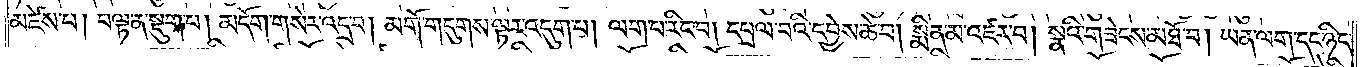མཛེས་པ། བལྟ་ན་སྡུག་པ། མདོག་གསེར་འདྲ་བ། མགོ་གདུགས་ལྟར་འདུག་པ། ལག་པ་རིང་བ། དཔྲལ་བའི་དབྱེས་ཆེ་བ། སྨིན་མ་འཛར་བ། སྣའི་གཟེངས་མཐོ་བ། ཡན་ལག་དང་ཉིང་
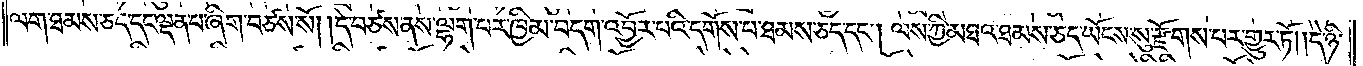ལག་ཐམས་ཅད་དང་ལྡན་པ་ཞིག་བཙས་སོ། །དེ་བཙས་ནས་ལྷག་པར་ཁྱིམ་བདག་འབྱོར་པའི་དགོས་པ་ཐམས་ཅད་དང༌། ལས་ཀྱི་མཐའ་ཐམས་ཅད་ཡོངས་སུ་རྫོགས་པར་གྱུར་ཏོ། །དེ་ཉི་
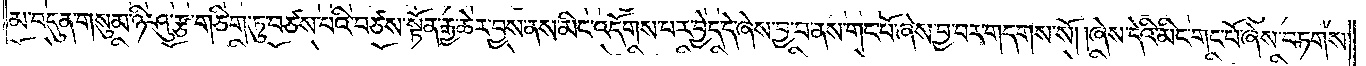མ་བདུན་གསུམ་ཉི་ཤུ་རྩ་གཅིག་ཏུ་བཙས་པའི་བཙས་སྟོན་རྒྱ་ཆེར་བྱས་ནས་མིང་འདོགས་པར་བྱེད་དེ་ཞེས་བྱ་བ་ནས་གང་པོ་ཞེས་བྱ་བར་གདགས་སོ། །ཞེས་དེའི་མིང་གང་པོ་ཞེས་བཏགས་
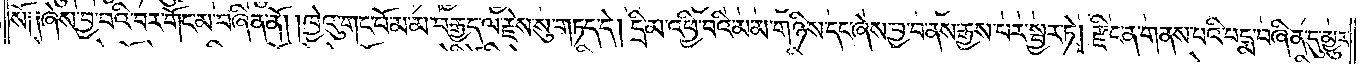སོ༑ ༑ཞེས་བྱ་བའི་བར་གོང་མ་བཞིན་ནོ། །ཁྱེའུ་གང་པོ་མ་མ་བརྒྱད་ལ་རྗེས་སུ་གཏད་དེ། དྲི་མ་འཕྱི་བའི་མ་མ་གཉིས་དང་ཞེས་བྱ་བ་ནས་རྒྱས་པར་སྦྱར་ཏེ། རྫིང་ན་གནས་པའི་པདྨ་བཞིན་དུ་མྱུར་
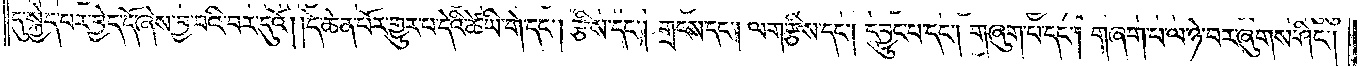དུ་སྐྱེད་པར་བྱེད་དོ་ཞེས་བྱ་བའི་བར་དུའོ། །དེ་ཆེན་པོར་གྱུར་པ་དེའི་ཚེ་ཡི་གེ་དང༌། རྩིས་དང༌། གྲངས་དང༌། ལག་རྩིས་དང༌། དབྱུང་པ་དང༌། གཞུག་པ་དང༌། གཞག་པ་ལ་ཉེ་བར་ཞུགས་ཤིང༌།
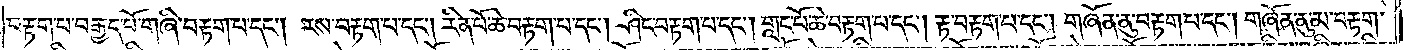བརྟག་པ་བརྒྱད་པོ་གཞི་བརྟག་པ་དང༌། རས་བརྟག་པ་དང༌། རིན་པོ་ཆེ་བརྟག་པ་དང༌། ཤིང་བརྟག་པ་དང༌། གླང་པོ་ཆེ་བརྟག་པ་དང༌། རྟ་བརྟག་པ་དང༌། གཞོན་ནུ་བརྟག་པ་དང༌། གཞོན་ནུ་མ་བརྟག་
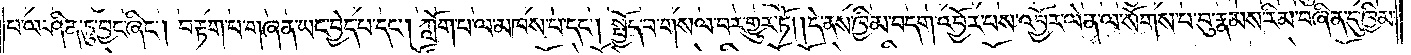པ་ལ་ཤིན་ཏུ་བྱང་ཞིང༌། བརྟག་པ་གཞན་ཡང་བྱེད་པ་དང༌། ཀློག་པ་ལ་མཁས་པ་དང༌། སྤྱོད་པ་གསལ་བར་གྱུར་ཏོ། །དེ་ནས་ཁྱིམ་བདག་འབྱོར་པས་འབྱོར་ལེན་ལ་སོགས་པ་བུ་རྣམས་རིམ་བཞིན་དུ་ཁྱིམ་
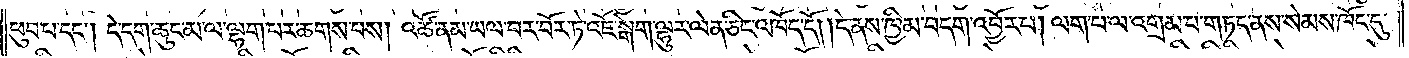ཕུབ་པ་དང༌། དེ་དག་ཆུང་མ་ལ་ལྷག་པར་ཆགས་པས། འཚོ་ནམ་ཡལ་བར་བོར་ཏེ་འཇོ་སྒེག་ལྷུར་ལེན་ཅིང་འཁོད་དོ། །དེ་ནས་ཁྱིམ་བདག་འབྱོར་པ། ལག་པ་ལ་འགྲམ་པ་གཏད་ནས་སེམས་ཁོང་དུ་
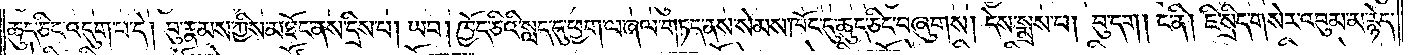ཆུད་ཅིང་འདུག་པ་དེ། བུ་རྣམས་ཀྱིས་མཐོང་ནས་དྲིས་པ། ཡབ། ཁྱོད་ཅིའི་སླད་དུ་ཕྱག་ལ་ཞལ་གཏད་ནས་སེམས་ཁོང་དུ་ཆུད་ཅིང་བཞུགས། དེས་སྨྲས་པ། བུ་དག། ང་ནི། ཇི་སྲིད་གསེར་འབུམ་མ་རྙེད་
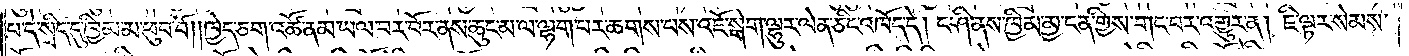པ་དེ་སྲིད་དུ་ཁྱིམ་མ་ཕུབ་བོ། །ཁྱེད་ཅག་འཚོ་ནམ་ཡལ་བར་བོར་ནས་ཆུང་མ་ལ་ལྷག་པར་ཆགས་པས་འཇོ་སྒེག་ལྷུར་ལེན་ཅིང་འཁོད་དེ། ང་ཤི་ནས་ཁྱིམ་མྱ་ངན་གྱིས་གང་བར་འགྱུར་ན། ཇི་ལྟར་སེམས་
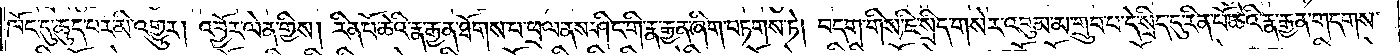ཁོང་དུ་ཆུད་པར་མི་འགྱུར། འབྱོར་ལེན་གྱིས། རིན་པོ་ཆེའི་རྣ་རྒྱན་ཐོགས་པ་ཕྲལ་ནས་ཤིང་གི་རྣ་རྒྱན་ཞིག་བཏགས་ཏེ། བདག་གིས་ཇི་སྲིད་གསེར་འབུམ་མ་གྲུབ་པ་དེ་སྲིད་དུ་རིན་པོ་ཆེའི་རྣ་རྒྱན་གདགས་
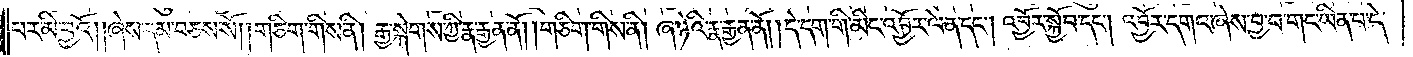པར་མི་བྱའོ། །ཞེས་དམ་བཅས་སོ། །གཅིག་གིས་ནི། རྒྱ་སྐེགས་ཀྱི་རྣ་རྒྱན་ནོ། །གཅིག་གིས་ནི། ཞ་ཉེའི་རྣ་རྒྱན་ནོ། །དེ་དག་གི་མིང་འབྱོར་ལེན་དང༌། འབྱོར་སྐྱོབ་དང༌། འབྱོར་དགའ་ཞེས་བྱ་བ་གང་ཡིན་པ་དེ་
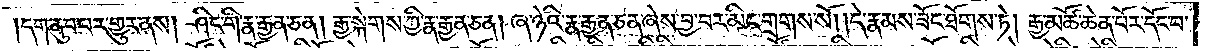དག་ནུབ་པར་གྱུར་ནས། ཤིང་གི་རྣ་རྒྱན་ཅན། རྒྱ་སྐེགས་ཀྱི་རྣ་རྒྱན་ཅན། ཞ་ཉེའི་རྣ་རྒྱན་ཅན་ཞེས་བྱ་བར་མིང་གྲགས་སོ། །དེ་རྣམས་ཟོང་ཐོགས་ཏེ། རྒྱ་མཚོ་ཆེན་པོར་དོང་བ་
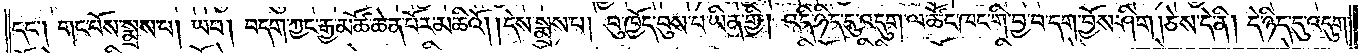དང༌། གང་པོས་སྨྲས་པ། ཡབ། བདག་ཀྱང་རྒྱ་མཚོ་ཆེན་པོར་མཆིའོ། །དེས་སྨྲས་པ། བུ་ཁྱོད་བུས་པ་ཡིན་གྱི། འདི་ཉིད་དུ་འདུག་ལ་ཚོང་ཁང་གི་བྱ་བ་དག་བྱོས་ཤིག །ཅེས་དེ་ནི། དེ་ཉིད་དུ་འདུག་
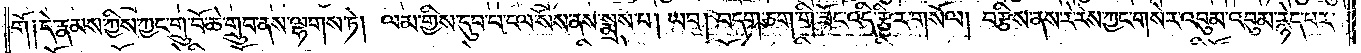གོ༑དེ་རྣམས་ཀྱིས་ཀྱང་གྲུ་བོ་ཆེ་གྲུབ་ནས་ལྷགས་ཏེ། ལམ་གྱིས་དུབ་པ་ངལ་སོས་ནས་སྨྲས་པ། ཡབ། བདག་ཅག་གི་ཟོང་འདི་རྩིར་གསོལ། བརྩིས་ནས་རེ་རེས་ཀྱང་གསེར་འབུམ་འབུམ་རྙེད་པར་
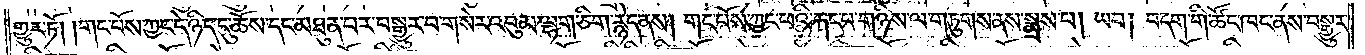གྱུར་ཏོ། །གང་པོས་ཀྱང་དེ་ཉིད་དུ་ཆོས་དང་མཐུན་པར་བསྒྱུར་བ་གསེར་འབུམ་ལྷག་ཅིག་རྙེད་ནས། གང་པོས་ཀྱང་ཕའི་རྐང་པ་གཉིས་ལ་གཏུགས་ནས་སྨྲས་པ། ཡབ། བདག་གི་ཚོང་ཁང་ནས་བསྒྱུར་
